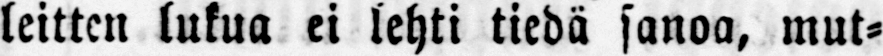leitten lukua ei lehti tiedä sanoa, mut-
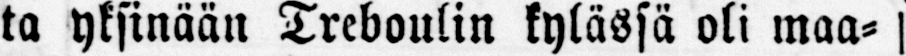ta yksinään Treboulin kylässä oli maa-
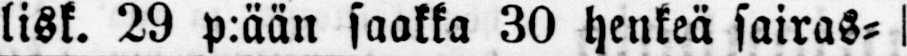lisk. 29 p:ään saakka 30 henkeä sairas- !
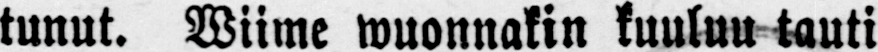tunut. Wiime wuonnakin kuuluu tauti
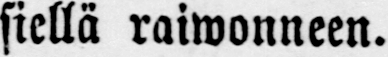siellä raiwonneen.
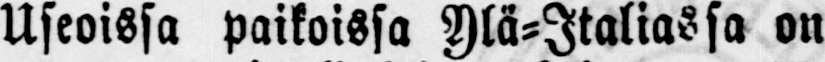Useoissa paikoissa Ylä-Italiassa on
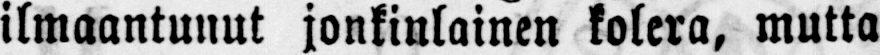ilmaantunut jonkinlainen kolera, mutta
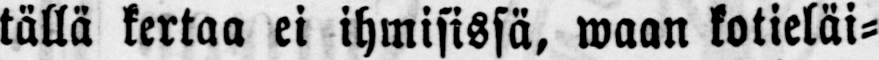tällä kertaa ei ihmisissä, waan kotieläi-
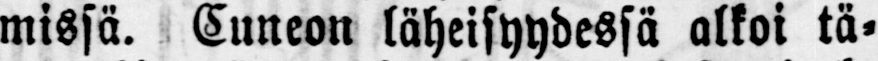missä. Cuneon läheisyydessä alkoi tä-
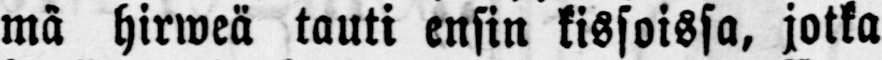mä hirweä tauti ensin kissoissa, jotka
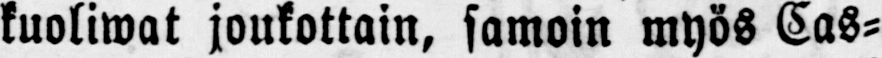kuoliwat joukottain, samoin myös Cas-
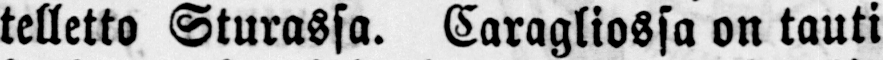telletto Sturassa. Caragliossa on tauti
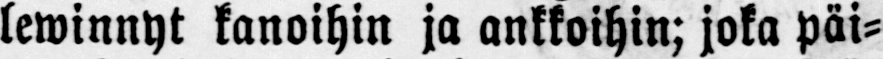lewinnyt kanoihin ja ankkoihin; joka päi-
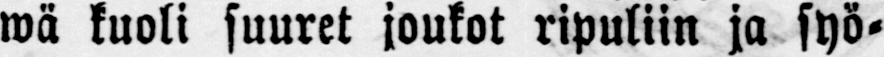wä kuoli suuret joukot ripuliin ja syö-
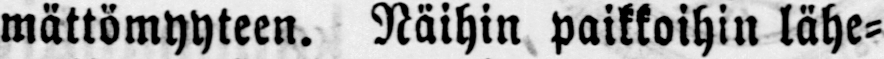mättömyyteen. Näihin paikkoihin lähe-
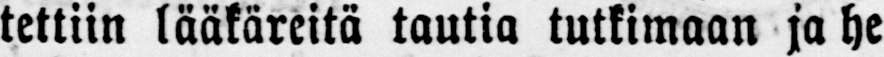tettiin lääkäreitä tautia tutkimaan ja he
